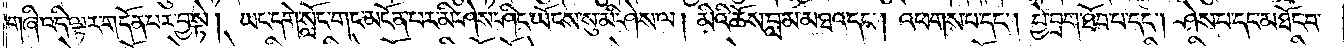གཞི་འདི་ལྟར་གདོན་པར་བྱ་སྟེ། ཡང་དགེ་སློང་གང་མངོན་པར་མི་ཤེས་ཤིང་ཡོངས་སུ་མི་ཤེས་ལ། མིའི་ཆོས་བླ་མ་མཐའ་དང༌། འཕགས་པ་དང༌། བྱེ་བྲག་ཐོབ་པ་དང༌། ཤེས་པ་དང་མཐོང་བ་
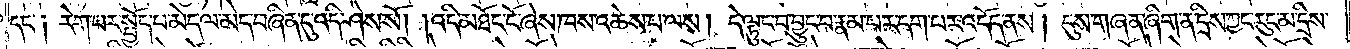དང་༑ རེག་པར་སྤྱོད་པ་མེད་ལ་མེད་བཞིན་དུ་འདི་ཤེས་སོ། །འདི་མཐོང་ངོ་ཞེས་ཁས་འཆེས་པ་ལས། དེ་ལྟུང་བ་བྱུང་བ་རྣམ་པར་དག་པར་འདོད་ནས། དུས་གཞན་ཞིག་ན་དྲིས་ཀྱང་རུང་མ་དྲིས་
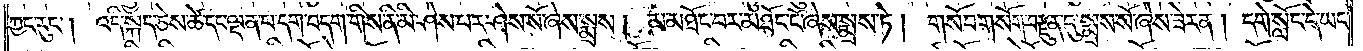ཀྱང་རུང༌། འདི་སྐད་ཅེས་ཚེ་དང་ལྡན་པ་དག་བདག་གིས་ནི་མི་ཤེས་པར་ཤེས་སོ་ཞེས་སྨྲས། མ་མཐོང་བར་མཐོང་ངོ་ཞེས་སྨྲས་ཏེ། གསོབ་གསོག་བརྫུན་དུ་སྨྲས་སོ་ཞེས་ཟེར་ན། དགེ་སློང་དེ་ཡང་
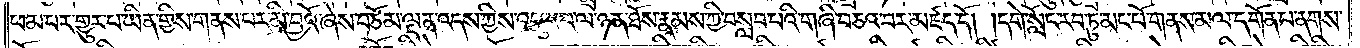ཕམ་པར་གྱུར་པ་ཡིན་གྱིས་གནས་པར་མི་བྱའོ་ཞེས་བཅོམ་ལྡན་འདས་ཀྱིས་འདུལ་བ་ལ་ཉན་ཐོས་རྣམས་ཀྱི་བསླབ་པའི་གཞི་བཅའ་བར་མཛད་དོ། །དགེ་སློང་རབ་ཏུ་མང་པོ་གནས་མལ་དགོན་པ་ནགས་
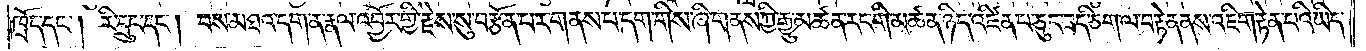ཁྲོད་དང༌། རི་དྲུང་དང༌། བས་མཐའ་དག་ན་རྣལ་འབྱོར་གྱི་རྗེས་སུ་བརྩོན་པར་གནས་པ་དག་གིས་ཞི་གནས་ཀྱི་རྒྱུ་མཚན་རང་གི་མཚན་ཉིད་འཛིན་པ་ཅུང་ཟད་ཅིག་ལ་བརྟེན་ནས་འཇིག་རྟེན་པའི་ཡིད་
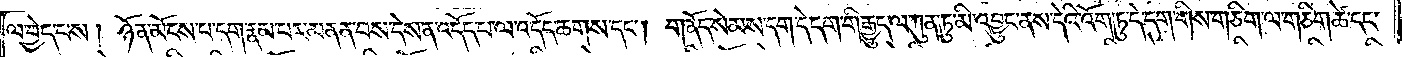ལ་བྱེད་པས། ཉོན་མོངས་པ་དག་རྣམ་པར་མནན་པས་དེས་ན་འདོད་པ་ལ་འདོད་ཆགས་དང༌། གནོད་སེམས་དག་དེ་དག་གི་རྒྱུད་ལ་ཀུན་ཏུ་མི་འབྱུང་ནས་དེའི་འོག་ཏུ་དེ་དག་གིས་གཅིག་ལ་གཅིག་ཚེ་དང་
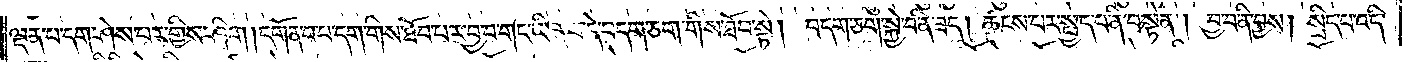ལྡན་པ་དག་ཤེས་པར་གྱིས་ཤིག །དགོན་པ་པ་དག་གིས་ཐོབ་པར་བྱ་བ་གང་ཡིན་པ་དེ་བདག་ཅག་གིས་ཐོབ་སྟེ། བདག་ཅག་སྐྱེ་བ་ནི་ཟད། ཚངས་པར་སྤྱད་པ་ནི་བསྟེན། བྱ་བ་ནི་བྱས། སྲིད་པ་འདི་
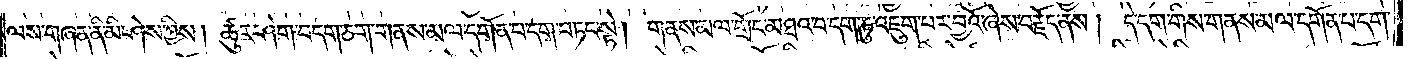ལས་གཞན་ནི་མི་ཤེས་ཀྱིས། ཚུར་ཤེག་བདག་ཅག་གནས་མལ་དགོན་པ་དག་བཏང་སྟེ། གནས་མལ་གྲོང་མཐའ་བ་དག་ཏུ་འཇུག་པར་བྱའོ་ཞེས་བརྗོད་ནས། དེ་དག་གིས་གནས་མལ་དགོན་པ་དག་
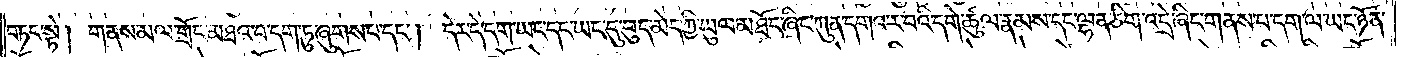བཏང་སྟེ། གནས་མལ་གྲོང་མཐའ་བ་དག་ཏུ་ཞུགས་པ་དང༌། དེར་དེ་དག་ཡང་དང་ཡང་དུ་བུད་མེད་ཀྱི་ཡུལ་མཐོང་ཞིང་ཀུན་དགའ་ར་བའི་དགེ་ཚུལ་རྣམས་དང་ལྷན་ཅིག་འདྲེ་ཞིང་གནས་པ་དག་ལ་ཡང་ཉོན་
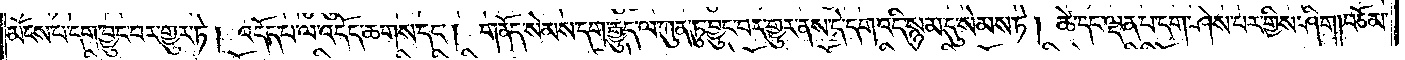མོངས་པ་དག་བྱུང་བར་གྱུར་ཏེ། འདོད་པ་ལ་འདོད་ཆགས་དང༌། གནོད་སེམས་དག་རྒྱུད་ལ་ཀུན་ཏུ་བྱུང་བར་གྱུར་ནས་དེ་དག་འདི་སྙམ་དུ་སེམས་ཏེ། ཚེ་དང་ལྡན་པ་དག་ཤེས་པར་གྱིས་ཤིག །བཅོམ་
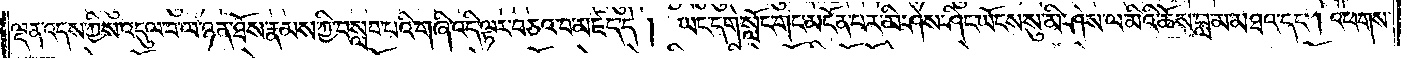ལྡན་འདས་ཀྱིས་འདུལ་བ་ལ་ཉན་ཐོས་རྣམས་ཀྱིས་བསླབ་པའི་གཞི་འདི་ལྟར་བཅའ་བ་མཛད་དེ། ཡང་དགེ་སློང་གང་མངོན་པར་མི་ཤེས་ཤིང་ཡོངས་སུ་མི་ཤེས་ལ་མིའི་ཆོས་བླ་མ་མཐའ་དང༌། འཕགས་
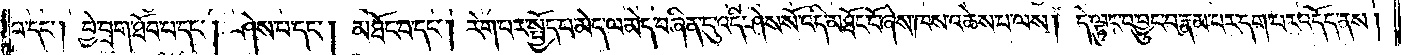པ་དང༌། བྱེ་བྲག་ཐོབ་པ་དང༌། ཤེས་པ་དང༌། མཐོང་བ་དང༌། རེག་པར་སྤྱོད་པ་མེད་ལ་མེད་བཞིན་དུ་འདི་ཤེས་སོ་འདི་མཐོང་ངོ་ཞེས་ཁས་འཆེས་པ་ལས། དེ་ལྟུང་བ་བྱུང་བ་རྣམ་པར་དག་པར་འདོད་ནས།
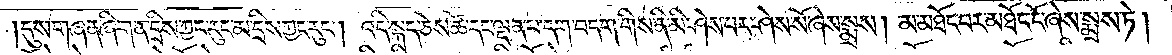དུས་གཞན་ཞིག་ན་དྲིས་ཀྱང་རུང་མ་དྲིས་ཀྱང་རུང༌། འདི་སྐད་ཅེས་ཚེ་དང་ལྡན་པ་དག་བདག་གིས་ནི་མི་ཤེས་པར་ཤེས་སོ་ཞེས་སྨྲས། མ་མཐོང་བར་མཐོང་ངོ་ཞེས་སྨྲས་ཏེ།
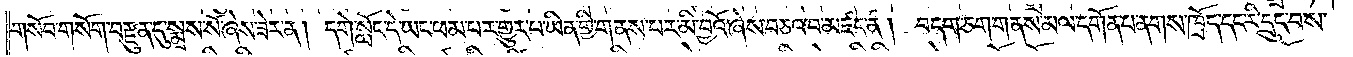གསོབ་གསོག་བརྫུན་དུ་སྨྲས་སོ་ཞེས་ཟེར་ན། དགེ་སློང་དེ་ཡང་ཕམ་པར་གྱུར་པ་ཡིན་གྱི་གནས་པར་མི་བྱའོ་ཞེས་བཅའ་བ་མཛད་ན། བདག་ཅག་གནས་མལ་དགོན་པ་ནགས་ཁྲོད་དང་རི་དྲུང་བས་
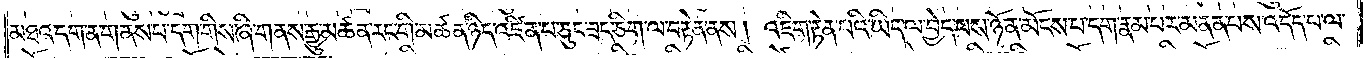མཐའ་དག་ན་གནས་པ་དག་གིས་ཞི་གནས་རྒྱུ་མཚན་རང་གི་མཚན་ཉིད་འཛིན་པ་ཅུང་ཟད་ཅིག་ལ་བརྟེན་ནས། འཇིག་རྟེན་པའི་ཡིད་ལ་བྱེད་པས་ཉོན་མོངས་པ་དག་རྣམ་པར་མནན་པས་འདོད་པ་ལ་
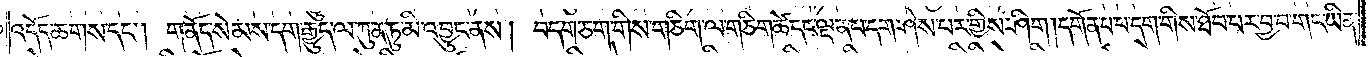འདོད་ཆགས་དང༌། གནོད་སེམས་དག་རྒྱུད་ལ་ཀུན་ཏུ་མི་འབྱུང་ནས། བདག་ཅག་གིས་གཅིག་ལ་གཅིག་ཚེ་དང་ལྡན་པ་དག་ཤེས་པར་གྱིས་ཤིག །དགོན་པ་དག་གིས་ཐོབ་པར་བྱ་བ་གང་ཡིན་
